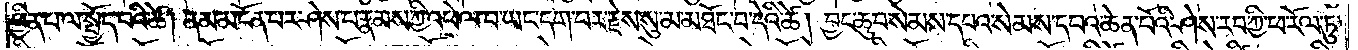ཕྱིན་པ་ལ་སྤྱོད་པའི་ཚེ། ནམ་མངོན་པར་ཤེས་པ་རྣམས་ཀྱི་འཕེལ་བ་ཡང་དག་པར་རྗེས་སུ་མ་མཐོང་བ་དེའི་ཚེ། བྱང་ཆུབ་སེམས་དཔའ་སེམས་དཔའ་ཆེན་པོའི་ཤེས་རབ་ཀྱི་ཕ་རོལ་ཏུ་
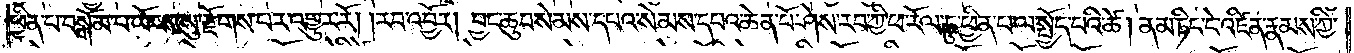ཕྱིན་པ་བསྒོམ་པ་ཡོངས་སུ་རྫོགས་པར་འགྱུར་རོ། །རབ་འབྱོར། བྱང་ཆུབ་སེམས་དཔའ་སེམས་དཔའ་ཆེན་པོ་ཤེས་རབ་ཀྱི་ཕ་རོལ་ཏུ་ཕྱིན་པ་ལ་སྤྱོད་པའི་ཚེ། ནམ་ཏིང་ངེ་འཛིན་རྣམས་ཀྱི་
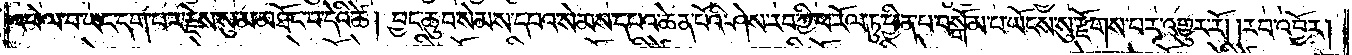འཕེལ་བ་ཡང་དག་པར་རྗེས་སུ་མ་མཐོང་བ་དེའི་ཚེ། བྱང་ཆུབ་སེམས་དཔའ་སེམས་དཔའ་ཆེན་པོའི་ཤེས་རབ་ཀྱི་ཕ་རོལ་ཏུ་ཕྱིན་པ་བསྒོམ་པ་ཡོངས་སུ་རྫོགས་པར་འགྱུར་རོ། །རབ་འབྱོར།
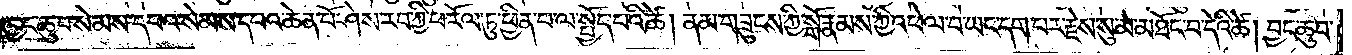བྱང་ཆུབ་སེམས་དཔའ་སེམས་དཔའ་ཆེན་པོ་ཤེས་རབ་ཀྱི་ཕ་རོལ་ཏུ་ཕྱིན་པ་ལ་སྤྱོད་པའི་ཚེ། ནམ་གཟུངས་ཀྱི་སྒོ་རྣམས་ཀྱི་འཕེལ་བ་ཡང་དག་པར་རྗེས་སུ་མ་མཐོང་བ་དེའི་ཚེ། བྱང་ཆུབ་
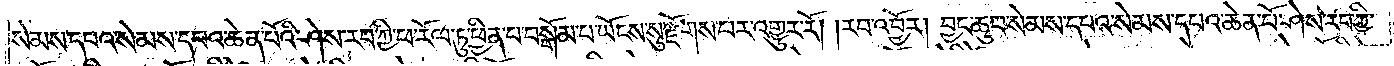སེམས་དཔའ་སེམས་དཔའ་ཆེན་པོའི་ཤེས་རབ་ཀྱི་ཕ་རོལ་ཏུ་ཕྱིན་པ་བསྒོམ་པ་ཡོངས་སུ་རྫོགས་པར་འགྱུར་རོ། །རབ་འབྱོར། བྱང་ཆུབ་སེམས་དཔའ་སེམས་དཔའ་ཆེན་པོའི་ཤེས་རབ་ཀྱི་
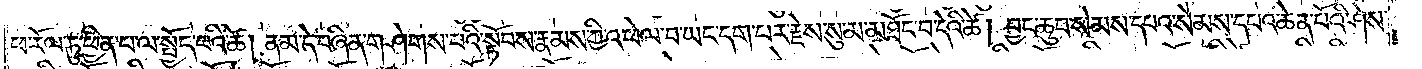ཕ་རོལ་ཏུ་ཕྱིན་པ་ལ་སྤྱོད་པའི་ཚེ། ནམ་དེ་བཞིན་གཤེགས་པའི་སྟོབས་རྣམས་ཀྱི་འཕེལ་བ་ཡང་དག་པར་རྗེས་སུ་མ་མཐོང་བ་དེའི་ཚེ། བྱང་ཆུབ་སེམས་དཔའ་སེམས་དཔའ་ཆེན་པོའི་ཤེས་
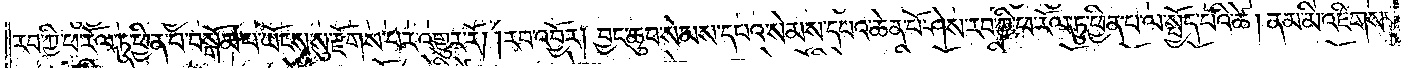རབ་ཀྱི་ཕ་རོལ་ཏུ་ཕྱིན་པ་བསྒོམ་པ་ཡོངས་སུ་རྫོགས་པར་འགྱུར་རོ། །རབ་འབྱོར། བྱང་ཆུབ་སེམས་དཔའ་སེམས་དཔའ་ཆེན་པོ་ཤེས་རབ་ཀྱི་ཕ་རོལ་ཏུ་ཕྱིན་པ་ལ་སྤྱོད་པའི་ཚེ། ནམ་མི་འཇིགས་
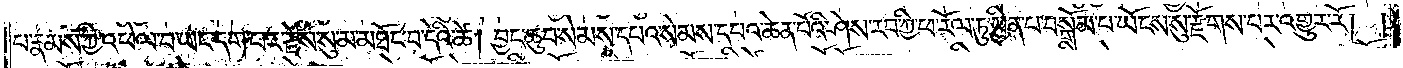པ་རྣམས་ཀྱི་འཕེལ་བ་ཡང་དག་པར་རྗེས་སུ་མ་མཐོང་བ་དེའི་ཚེ། བྱང་ཆུབ་སེམས་དཔའ་སེམས་དཔའ་ཆེན་པོའི་ཤེས་རབ་ཀྱི་ཕ་རོལ་ཏུ་ཕྱིན་པ་བསྒོམ་པ་ཡོངས་སུ་རྫོགས་པར་འགྱུར་རོ། །
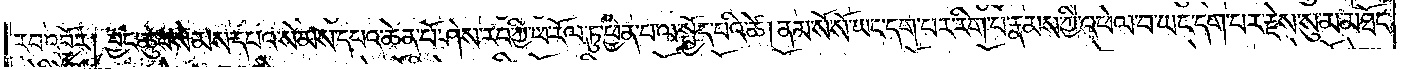རབ་འབྱོར། བྱང་ཆུབ་སེམས་དཔའ་སེམས་དཔའ་ཆེན་པོ་ཤེས་རབ་ཀྱི་ཕ་རོལ་ཏུ་ཕྱིན་པ་ལ་སྤྱོད་པའི་ཚེ། ནམ་སོ་སོ་ཡང་དག་པར་རིག་པ་རྣམས་ཀྱི་འཕེལ་བ་ཡང་དག་པར་རྗེས་སུ་མ་མཐོང་
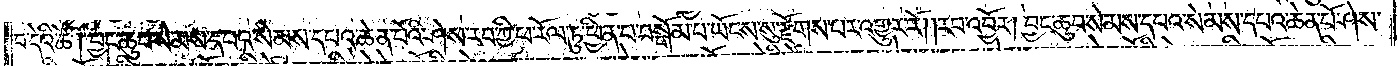བ་དེའི་ཚེ། བྱང་ཆུབ་སེམས་དཔའ་སེམས་དཔའ་ཆེན་པོའི་ཤེས་རབ་ཀྱི་ཕ་རོལ་ཏུ་ཕྱིན་པ་བསྒོམ་པ་ཡོངས་སུ་རྫོགས་པར་འགྱུར་རོ། །རབ་འབྱོར། བྱང་ཆུབ་སེམས་དཔའ་སེམས་དཔའ་ཆེན་པོ་ཤེས་
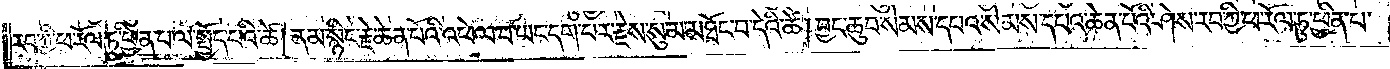རབ་ཀྱི་ཕ་རོལ་ཏུ་ཕྱིན་པ་ལ་སྤྱོད་པའི་ཚེ། ནམ་སྙིང་རྗེ་ཆེན་པོའི་འཕེལ་བ་ཡང་དག་པར་རྗེས་སུ་མ་མཐོང་བ་དེའི་ཚེ། བྱང་ཆུབ་སེམས་དཔའ་སེམས་དཔའ་ཆེན་པོའི་ཤེས་རབ་ཀྱི་ཕ་རོལ་ཏུ་ཕྱིན་པ་
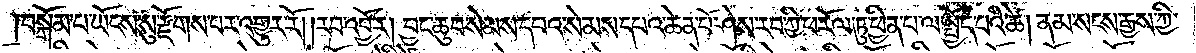བསྒོམ་པ་ཡོངས་སུ་རྫོགས་པར་འགྱུར་རོ། །རབ་འབྱོར། བྱང་ཆུབ་སེམས་དཔའ་སེམས་དཔའ་ཆེན་པོ་ཤེས་རབ་ཀྱི་ཕ་རོལ་ཏུ་ཕྱིན་པ་ལ་སྤྱོད་པའི་ཚེ། ནམ་སངས་རྒྱས་ཀྱི་
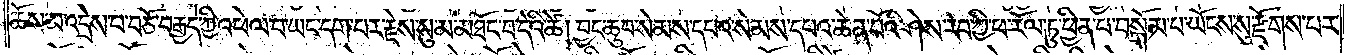ཆོས་མ་འདྲེས་པ་བཅོ་བརྒྱད་ཀྱི་འཕེལ་བ་ཡང་དག་པར་རྗེས་སུ་མ་མཐོང་བ་དེའི་ཚེ། བྱང་ཆུབ་སེམས་དཔའ་སེམས་དཔའ་ཆེན་པོའི་ཤེས་རབ་ཀྱི་ཕ་རོལ་ཏུ་ཕྱིན་པ་བསྒོམ་པ་ཡོངས་སུ་རྫོགས་པར་
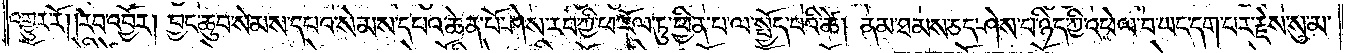འགྱུར་རོ། །རབ་འབྱོར། བྱང་ཆུབ་སེམས་དཔའ་སེམས་དཔའ་ཆེན་པོ་ཤེས་རབ་ཀྱི་ཕ་རོལ་ཏུ་ཕྱིན་པ་ལ་སྤྱོད་པའི་ཚེ། ནམ་ཐམས་ཅད་ཤེས་པ་ཉིད་ཀྱི་འཕེལ་བ་ཡང་དག་པར་རྗེས་སུ་མ་
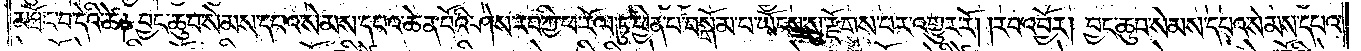མཐོང་བ་དེའི་ཚེ། བྱང་ཆུབ་སེམས་དཔའ་སེམས་དཔའ་ཆེན་པོའི་ཤེས་རབ་ཀྱི་ཕ་རོལ་ཏུ་ཕྱིན་པ་བསྒོམ་པ་ཡོངས་སུ་རྫོགས་པར་འགྱུར་རོ། །རབ་འབྱོར། བྱང་ཆུབ་སེམས་དཔའ་སེམས་དཔའ་
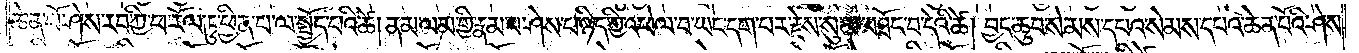ཆེན་པོ་ཤེས་རབ་ཀྱི་ཕ་རོལ་ཏུ་ཕྱིན་པ་ལ་སྤྱོད་པའི་ཚེ། ནམ་ལམ་གྱི་རྣམ་པ་ཤེས་པ་ཉིད་ཀྱི་འཕེལ་བ་ཡང་དག་པར་རྗེས་སུ་མ་མཐོང་བ་དེའི་ཚེ། བྱང་ཆུབ་སེམས་དཔའ་སེམས་དཔའ་ཆེན་པོའི་ཤེས་
